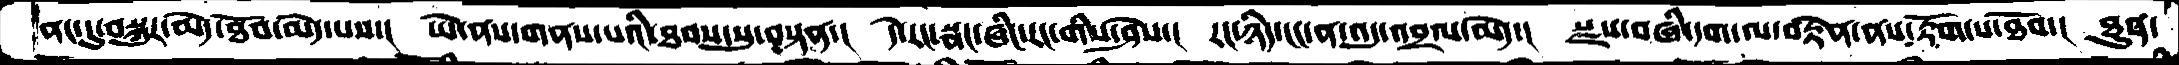ནང་དུ་བསྐུར་མེ་དཐོབ་མེད་པས་།  ཡེ་ནས་གནས་པའི་ཐབས་སུ་བསྟན་།  དེ་རང་སྣང་ཞིང་རང་གིས་ཤེས་།  རང་ཉིད་ངང་ན་འདུ་འབྲལ་མེད་།  སྫས་བཞི་དག་ལ་བརྟེན་ནས་རྟོག་པ་ཐོབ་།  ཐུན་
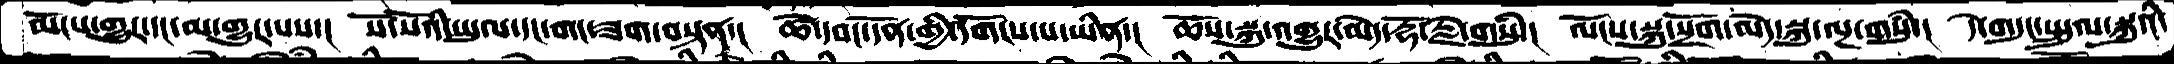མོངས་གྱུར་དང་མ་གྱུར་པས་།  སོ་སོའི་ཡུལ་དང་གང་ཟག་བསྟན་།  ཚེ་དབང་དོན་གྱི་དགོངས་པ་ཡིན་།  ཆོས་སྐུ་འགྱུར་མེད་རྡོ་རྗེ་གསུཾ་།  ལོངས་སྐུ་སྲོག་མེད་སྐུ་ལྔ་གསུཾ་།  དེ་གདུང་སྤྲུལ་སྐུའི་
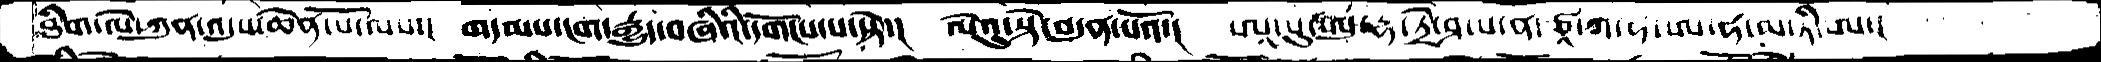ཐིག་ལེ་ཀུན་འདུས་ཆེན་པོ་ལས་།  གདམས་ངག་རྒྱུད་བཞིའི་དགོངས་པ་སྟེ་།  ལེའུ་སྟེ་བདུན་པའོ་།  ཨཱ་སུ་ཨུ་དྷ་ཏྲེ་ཤ་པ་ན་ཙཱ་ཀ་ཧ་ཨ་ཧ་མ་ཏི་ཨ་།
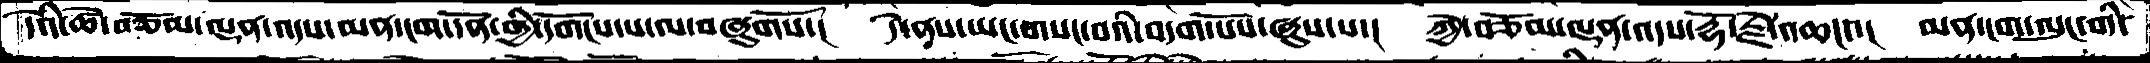དེའི་ཚེ་ནཅོམ་ལྡན་འདས་མན་ངག་དོན་གྱི་དགོངས་པ་ལ་བཞུགསོ་།  དེ་ནས་ཡང་གསང་བའི་བདག་པོས་ཞུས་པ་།  ཀྱེ་བཅོམ་ལྡན་འདས་རྡོ་རྗེ་འཆང་་།  མན་ངག་ལུང་གི་
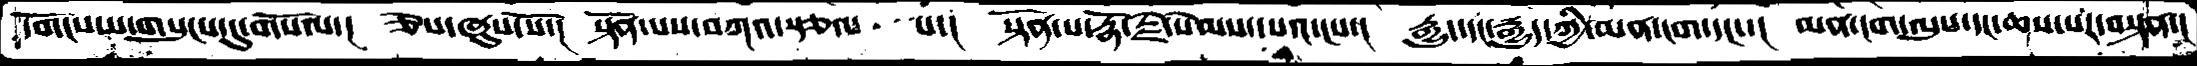དགོངས་པ་གསུངས་དུ་གསོལ་།  ཅེས་ཞུས་སོ་།  སྟོན་པས་བཀའ་སྩལ་  པ་།  སྟོན་པ་རྡོ་རྗེ་སེམས་དཔའ་ངས་།  རྒྱུད་དང་རྒྱུད་ཀྱི་མན་ངག་དང་་།  མན་ངག་ལུས་དང་ཆས་པར་བསྟན་།
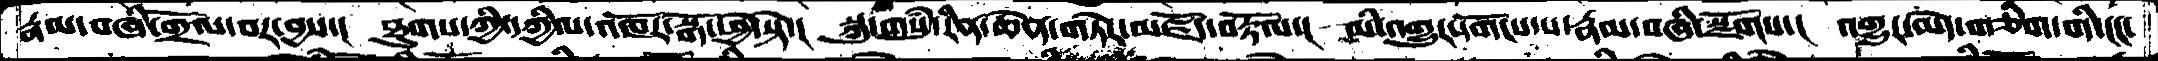རྣམ་བཞི་གྲོལ་བར་བྱས་།   ཐུགས་ཀྱི་དཀྱིལ་འཁོར་སྒོ་ཕྱེ་སྟེ་།  སྐུ་གསུཾ་རིན་ཆེན་གཏེར་མཛོད་བརྟོལ་།  མི་འགྱུར་དགོངས་པ་རྣམ་བཞི་སྫོགས་།  འགྱུར་མེད་གཅིག་གི་ངང་
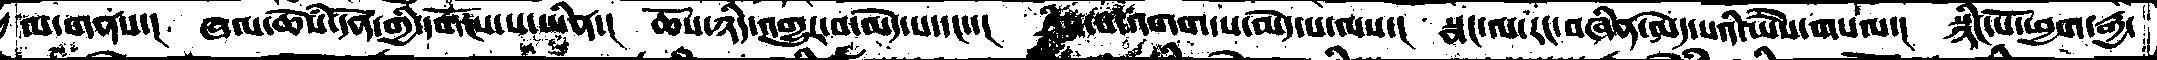མ་གནས་།  ཞལ་ཆེཾས་དོན་གྱི་དགོངས་པ་ཡིན་།  ཆོས་ཉིད་འགྱུར་བ་མེད་པ་དང་་།  རིག་པ་འགག་པ་མེད་པ་ལས་།  སྣང་ལ་རང་བཞིན་མེད་པའི་ཡཻས་གསལ་།  སྙིང་པོ་ཕྱག་རྒྱ་
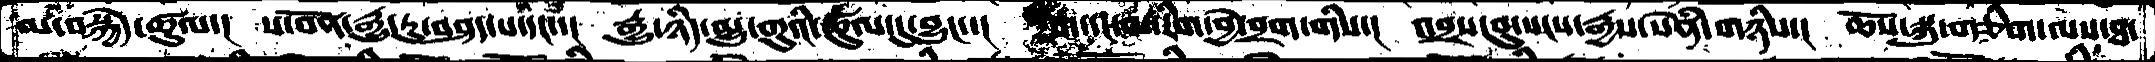མི་བསྐྱེད་ཚུལ་། ས་བོན་རྒྱུ་རུ་བཤད་པ་དང་་། རྒྱུ་ཉིད་མྱུ་གུའི་ཚུལ་དུ་བྱུང་་། རིག་དང་མ་རིག་བྱེ་བྲག་གིས་། འབྲས་བུ་སངས་རྒྱས་སེནཾ་གཉིས་། ཆོས་སྐུ་གཅིག་ལས་ཐ་
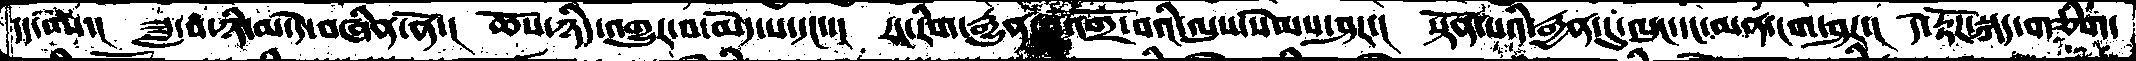དད་བས་། ཟླ་བ་ཉི་མ་དེ་བཞིན་ནོ་། ཆོས་ཉིད་འགྱུར་བ་མེད་པ་དང་་། རང་རིག་རྒྱུན་ཏུ་འགྲོ་བའི་ལུས་སེམས་ཤར་། སྟོན་པའི་རྒྱན་དུ་ལུང་དང་མན་ངག་ཤར་། དེ་རྟོཌ་སྐད་གཅིག་
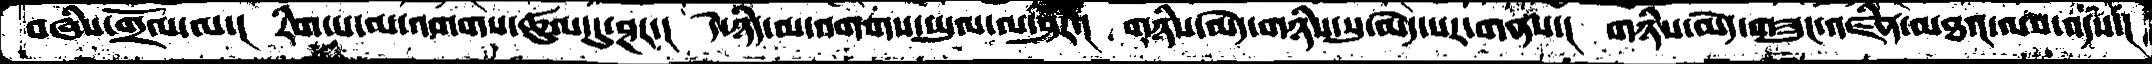བཞིས་གྲོལ་ལ་།   རིག་པ་མ་འགགས་ཚུལ་དུ་ཤར་།   དེ་ཉིད་མ་འགགས་ཡུལ་ལ་ཤར་།  གཉིས་མེད་གཉིས་སུ་མེད་པར་གནས་།  གཉིས་མེད་གཟུང་འཛིན་མཐའ་ལས་འདས་།
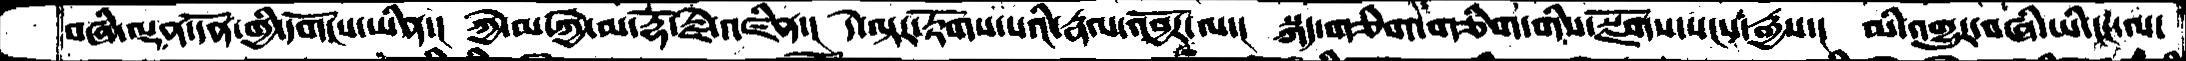བཞི་ལྡན་དོན་གྱི་དགོངས་ཡིན་།  ཀྱེ་མ་ཀྱེ་མ་རྡོ་རྗེ་འཛིན་།  དེ་ལྟར་རྟོགས་པའི་རྣལ་འབྱོར་ལ་།   སྐད་གཅིག་གཅིག་གིས་སྫོགས་སངས་རྒྱས་།  མི་འགྱུར་བཞི་ཡི་ངང་ལ་
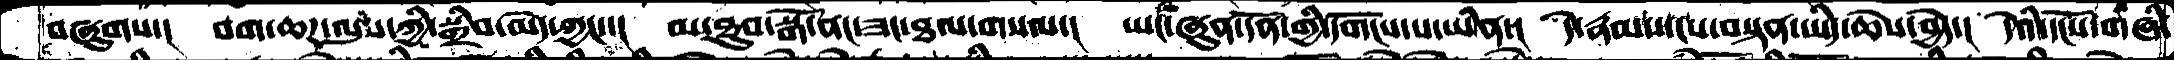བཞུགས་།   བག་ཆཌ་ལུས་ཀྱི་སྒྲིབ་མེད་ཀྱང་་།  མ་ཐུབ་སྒོ་ནང་ཟང་ཐལ་གསལ་།  ཡང་ཞུན་དོན་གྱི་དགོངས་པ་ཡིན་།  དེ་རྣམས་ངས་བསྟན་ཡིད་ཆེས་བྱེད་།  དེའི་དངོས་གཞི་
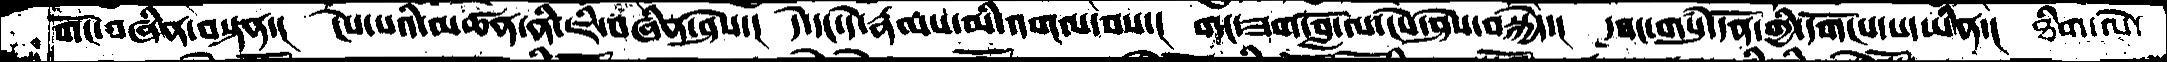གོང་བཞིན་བསྟན་།  ངེས་པའི་མཚན་ནི་ཇི་བཞིན་ཤེས་།  དེ་དང་དེ་རྣམས་མི་འགལ་བས་།  གང་ཟག་བློ་ལ་ངེས་ཤེས་བསྐྱེད་།  དབང་གསུཾ་དོན་གྱི་དགོངས་པ་ཡིན་།  ཐིག་ལེ་
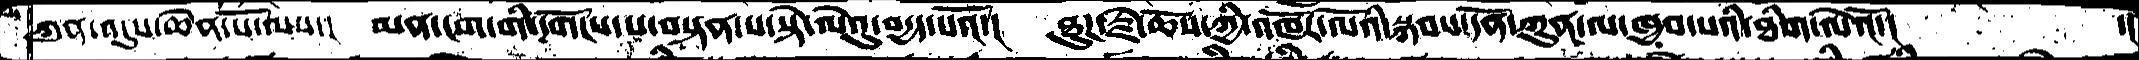ཀུན་འདུས་ཆེན་པོ་ལས་། མན་ངག་གི་དགོངས་པ་བསྟན་པ་སྟེ་ལེའུ་བདྱད་པའོ་། ཐུཌ་རྗེ་ཆོས་ཀྱི་འཁོར་ལོའི་སྐབས་དོན་ཀུན་ལ་ཁྱབ་པའི་ཐིག་ལེའོ་།      ་།
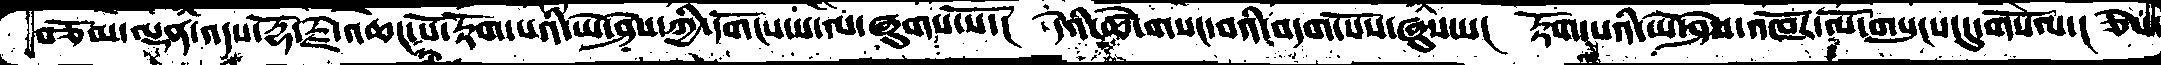བཅོམ་ལྡན་འདས་རྡོ་རྗེ་འཆང་པོ་རྟོག་པའི་ཡེ་ཤེས་ཀྱི་དགོངས་པ་ལ་ཞུགས་སོ་། དེའི་ཚེ་གསང་བའི་བདག་པོས་ཞུས་པ། རྟོག་པའི་ཡེ་ཤེས་འཁོར་ལོ་གསུངས་དུ་གསོལ་། ཅེས
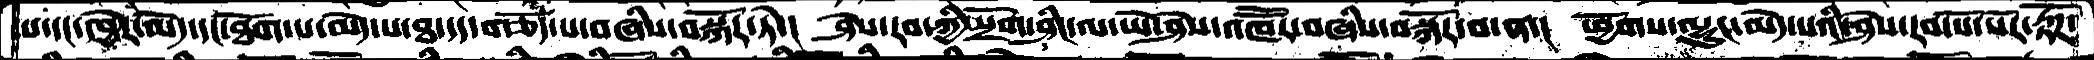པ་དང་དབྱེར་མེད་དང་ཐོག་པ་མེད་པ་ཐ་དད་གཅོད་པ་བཞིས་བསྐོར་ཏེ་།  ཤེས་རབ་ཀྱི་སྲོག་ཤིང་ལ་ཡེ་ཤེས་འཁཽར་བཞིས་བསྐོར་བ་ན་།  ཕྱོགས་ལྷུང་མེད་པའི་ཤེས་རབ་སོ་སོར་རྟོཌ་
